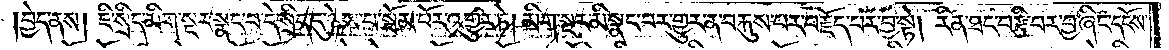བྱེད་ནས། ཇི་སྲིད་མིག་སྔར་སྣང་བ་དེ་སྲིད་དུ་ཉེས་པ་སྦོམ་པོར་འགྱུར་ཏེ། མིག་སྔར་མི་སྣང་བར་གྱུར་ན་བརྐུས་པར་བརྗོད་པར་བྱ་སྟེ། རིན་ཐང་བརྩི་བར་བྱ་ཞིང་དངོས་
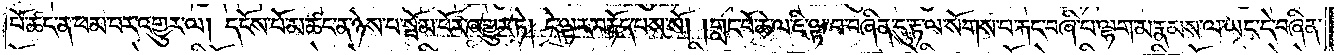བོ་ཚང་ན་ཕམ་པར་འགྱུར་ལ། དངོས་པོ་མ་ཚང་ན་ཉེས་པ་སྦོམ་པོར་འགྱུར་ཏེ། དེ་ལྟར་བརྟོད་པས་སོ། །གླང་པོ་ཆེ་ལ་ཇི་ལྟ་བ་བཞིན་དུ་རྟ་ལ་སོགས་པ་རྐང་བཞི་པ་ལྷག་མ་རྣམས་ལ་ཡང་དེ་བཞིན་
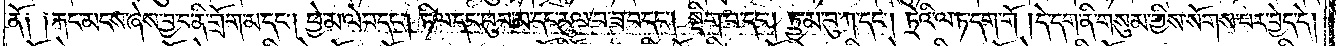ནོ༑ ༑རྐང་མངས་ཞེས་བྱ་བ་ནི་གྲོག་མ་དང༌། ཕྱེ་མ་ལེབ་དང༌། ཏིལ་དང་ཕུབ་མ་དང་རུལ་བ་ཟ་བ་དང༌། སྡིག་པ་དང༌། ཏྲྱ་མ་བུ་ཀ་དང༌། ཏྲེའི་ལ་ཏ་དག་གོ །དེ་དག་ནི་གསུམ་གྱིས་སོགས་པར་བྱེད་དེ།
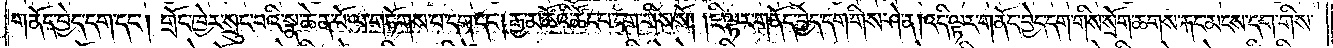གནོད་བྱེད་དག་དང༌། གྲོང་ཁྱེར་སྲུང་བའི་སྣ་ཆེན་པོ་ལ་གཏོགས་པ་དག་དང༌། རྒྱ་མཚོའི་ཚོང་བ་དག་གིས་སོ། །ཇི་ལྟར་གནོད་བྱེད་དག་གིས་ཤེ་ན། འདི་ལྟར་གནོད་བྱེད་དག་གིས་སྲོག་ཆགས་རྐང་མངས་དག་གིས་
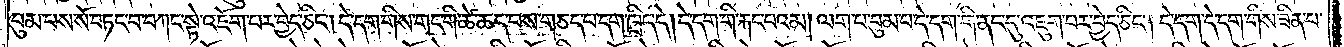བུམ་པས་སོ་བཏང་བ་བཀང་སྟེ་འཇོག་པར་བྱེད་ཅིང༌། དེ་དག་གིས་གང་གི་ཚེ་ཆད་པས་གཅད་པ་དག་ཁྲིད་དེ། དེ་དག་གི་རྐང་པའམ། ལག་པ་བུམ་པ་དེ་དག་གི་ནང་དུ་འཇུག་པར་བྱེད་ཅིང༌། དེ་དག་དེ་དག་གིས་ཟིན་པ་
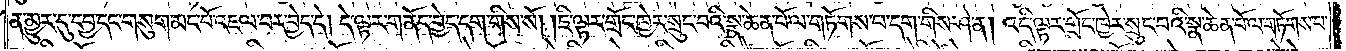ན་མྱུར་དུ་དཔྱ་དང་གསུག་མང་པོ་འཇལ་བར་བྱེད་དེ། དེ་ལྟར་གནོད་བྱེད་དག་གིས་སོ། །ཇི་ལྟར་གྲོང་ཁྱེར་སྲུང་བའི་སྣ་ཆེན་པོ་ལ་གཏོགས་པ་དག་གིས་ཤེ་ན། འདི་ལྟར་གྲོང་ཁྱེར་སྲུང་བའི་སྣ་ཆེན་པོ་ལ་གཏོགས་པ་
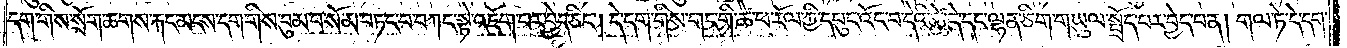དག་གིས་སྲོག་ཆགས་རྐང་མངས་དག་གིས་བུམ་པ་སོ་མ་བཏང་བ་བཀང་སྟེ་འཇོག་པར་བྱེད་ཅིང༌། དེ་དག་གིས་གང་གི་ཚེ་ཕ་རོལ་ཀྱི་དཔུང་འོང་བ་དེའི་ཚེ་དེ་དང་ལྷན་ཅིག་གཡུལ་སྤྲོད་པར་བྱེད་པ་ན། གལ་ཏེ་དེ་དག་
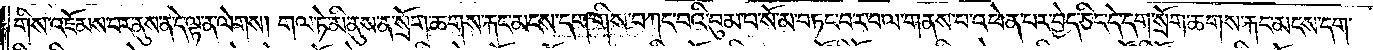གིས་འཇོམས་པར་ནུས་ན་དེ་ལྟ་ན་ལེགས། གལ་ཏེ་མི་ནུས་ན་སྲོག་ཆགས་རྐང་མངས་དག་གིས་བཀང་བའི་བུམ་པ་སོ་མ་བཏང་བ་ར་བ་ལ་གནས་པ་འཕེན་པར་བྱེད་ཅིང་དེ་དག་སྲོག་ཆགས་རྐང་མངས་དག་
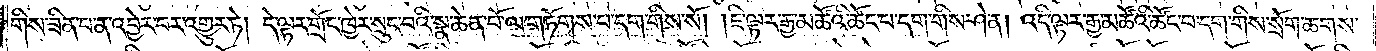གིས་ཟིན་པ་ན་འབྱེར་བར་འགྱུར་ཏེ། དེ་ལྟར་གྲོང་ཁྱེར་སྲུང་བའི་སྣ་ཆེན་པོ་ལ་གཏོགས་པ་དག་གིས་སོ། །ཇི་ལྟར་རྒྱ་མཚོའི་ཚོང་པ་དག་གིས་ཤེ་ན། འདི་ལྟར་རྒྱ་མཚོའི་ཚོང་པ་དག་གིས་སྲོག་ཆགས་
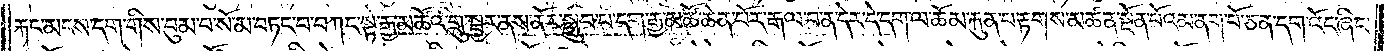རྐང་མངས་དག་གིས་བུམ་བ་སོ་མ་བཏང་བ་བཀང་སྟེ་རྒྱ་མཚོའི་གྲུ་སྦྱར་ནས་ནོར་སྒྲུབ་པ་དག་རྒྱ་མཚོ་ཆེན་པོར་རྒལ་བ་ན་དེར་དེ་དག་ལ་ཆོམ་རྐུན་པ་རྟགས་མཚན་སྔོན་པོའམ་ནག་པོ་ཅན་དག་འོང་ཞིང་
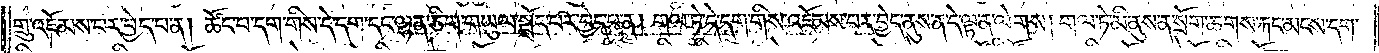གྲུ་འཇོམས་པར་བྱེད་པ་ན། ཚོང་པ་དག་གིས་དེ་དག་དང་ལྷན་ཅིག་གཡུལ་སྤྲོད་པར་བྱེད་པ་ན། གལ་ཏེ་དེ་དག་གིས་འཇོམས་པར་བྱེད་ནུས་ན་དེ་ལྟ་ན་ལེགས། གལ་ཏེ་མི་ནུས་ན་སྲོག་ཆགས་རྐང་མངས་དག་
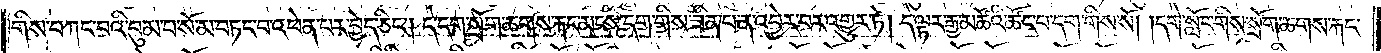གིས་བཀང་བའི་བུམ་པ་སོ་མ་བཏང་བ་འཕེན་པར་བྱེད་ཅིང༌། དེ་དག་སྲོག་ཆགས་རྐང་མངས་དག་གིས་ཟིན་པ་ན་འབྱེར་བར་འགྱུར་ཏེ། དེ་ལྟར་རྒྱ་མཚོའི་ཚོང་པ་དག་གིས་སོ། །དགེ་སློང་གིས་སྲོག་ཆགས་རྐང་
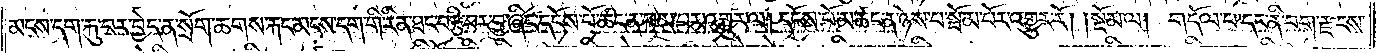མངས་དག་རྐུ་བར་བྱེད་ན་སྲོག་ཆགས་རྐང་མངས་དག་གི་རིན་ཐང་བརྩི་བར་བྱ་ཞིང་དངོས་པོ་ཚང་ན་ཕམ་པར་འགྱུར་ལ། དངོས་པོ་མ་ཚང་ན་ཉེས་པ་སྦོམ་པོར་འགྱུར་རོ། །སྡོམ་ལ། གདོལ་པ་དང་ནི་བག་རྫངས་
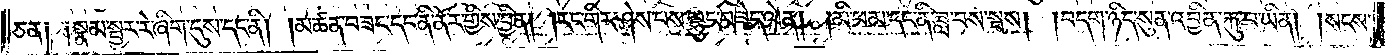ཅན། །སྣམ་སྦྱར་རེ་ཞིག་དུས་དང་ནི། །མཚན་བཟང་དང་ནི་ནོར་གྱིས་བྱིན། །རང་གིར་ཤེས་པས་ལྷུང་བཟེད་ལེན། །མི་ཕམ་དང་ནི་ཟླ་བས་སྦས། །བདག་ཉིད་སུན་འབྱིན་རྐུ་བ་ཡིན། སངས་
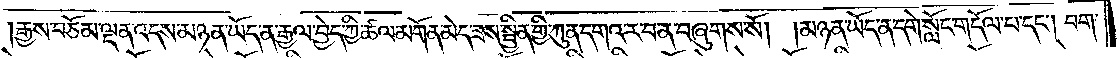རྒྱས་བཅོམ་ལྡན་འདས་མཉན་ཡོད་ན་རྒྱལ་བྱེད་ཀྱི་ཚལ་མགོན་མེད་ཟས་སྦྱིན་གྱི་ཀུན་དགའ་ར་བ་ན་བཞུགས་སོ། །མཉན་ཡོད་ན་དགེ་སློང་གདོལ་པ་དང༌། བག་
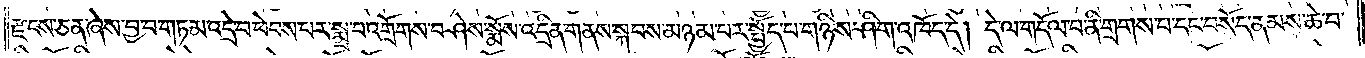རྫངས་ཅན་ཞེས་བྱ་བ་གཏམ་འདྲེ་བ་ཕེབས་པར་སྨྲ་བ་འགྲོགས་བཤེས་སྨོས་འདྲིན་གནས་སྐབས་མཉམ་པར་སྤྱོད་པ་གཉིས་ཤིག་འཁོད་དེ། དེ་ལ་གདོལ་པ་ནི་གྲགས་པ་དང་བསོད་ནམས་ཆེ་བ་
